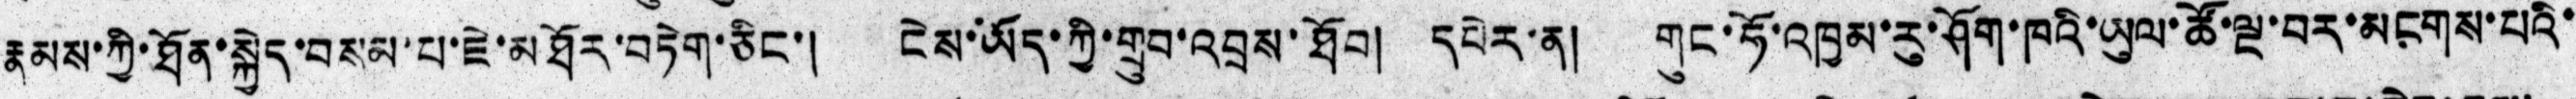རྣམས་ཀྱི་ཐོན་སྐྱེད་བསམ་པ་ཇེ་མཐོར་བཏེག་ཅིང་། ངེས་ཡོད་ཀྱི་གྲུབ་འབྲས་ཐོབ། དཔེར་ན། གུང་ཧོ་འཁྱམ་རུ་ཤོག་ཁའི་ཡུལ་ཚོ་ལྔ་བར་མངགས་པའི་
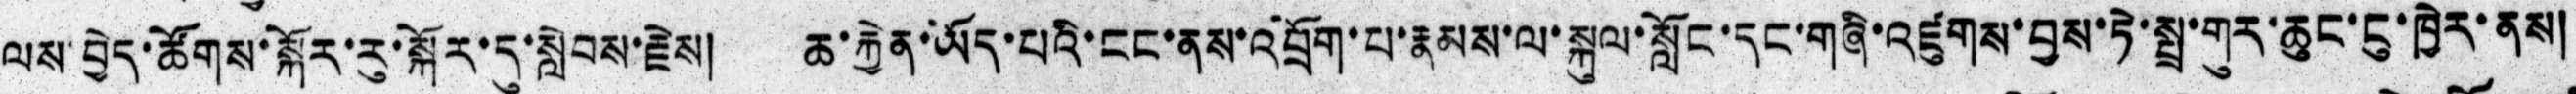ལས་བྱེད་ཚོགས་སྐོར་རུ་སྐོར་དུ་སླེབས་རྗེས། ཆ་རྐྱེན་ཡོད་པའི་ངང་ནས་འབྲོག་པ་རྣམས་ལ་སྐུལ་སློང་དང་གཞི་འཛུགས་བྱས་ཏེ་སྤྲ་གུར་ཆུང་ངུ་ཁྱེར་ནས།
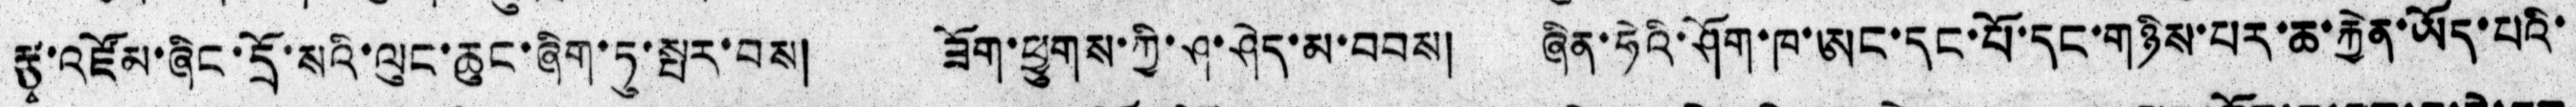རྩྭ་འཛོམ་ཞིང་དྲོ་སའི་ལུང་ཆུང་ཞིག་ཏུ་སྤར་བས།  ཟོག་ཕྱུགས་ཀྱི་ཤ་ཤེད་མ་བབས།  ཞིན་ཧེའི་ཤོག་ཁ་ཨང་དང་པོ་དང་གཉིས་པར་ཆ་རྐྱེན་ཡོད་པའི་
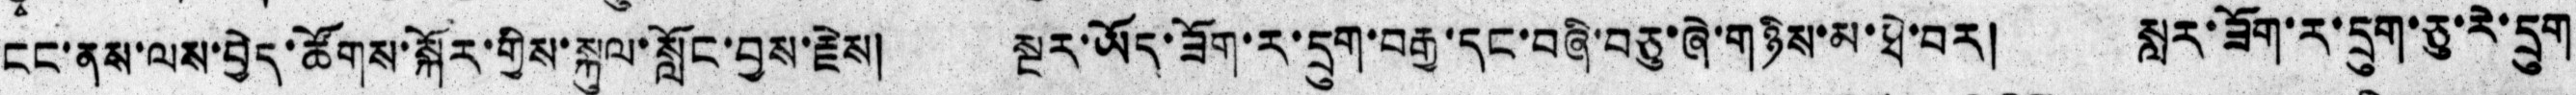ངང་ནས་ལས་བྱེད་ཚོགས་སྐོར་གྱིས་སྐུལ་སློང་བྱས་རྗེས། སྔར་ཡོད་ཟོག་ར་དྲུག་བརྒྱ་དང་བཞི་བཅུ་ཞེ་གཉིས་མ་ཐེ་བར། སླར་ཟོག་ར་དྲུག་ཅུ་རེ་དྲུག
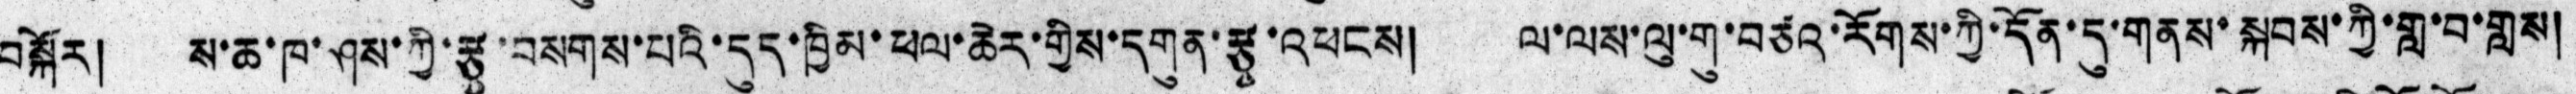བསྐོར།   ས་ཆ་ཁ་ཤས་ཀྱི་རྩྭ་བསགས་པའི་དུད་ཁྱིམ་ཕལ་ཆེར་གྱིས་དགུན་རྩྭ་འཕངས།  ལ་ལས་ལུ་གུ་བཙའ་རོགས་ཀྱི་དོན་དུ་གནས་སྐབས་ཀྱི་གླ་བ་གླས།
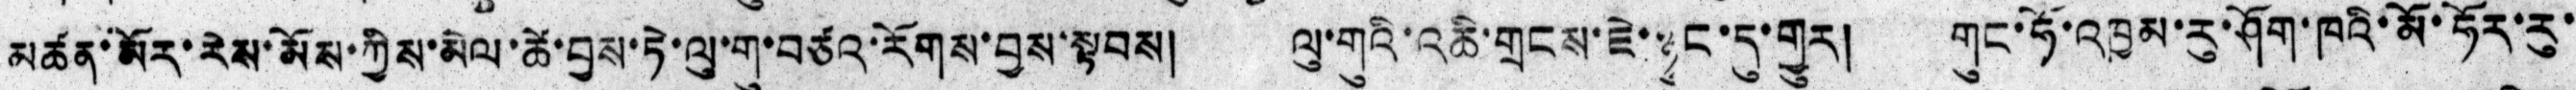མཚན་མོར་རེས་མོས་ཀྱིས་མེལ་ཚེ་བྱས་ཏེ་ལུ་གུ་བཙའ་རོགས་བྱས་སྟབས།  ལུ་གུའི་འཆི་གྲངས་ཇེ་ཉུང་དུ་གྱུར།  གུང་ཧོ་འཁྱམ་རུ་ཤོག་ཁའི་མོ་ཧོར་རུ་
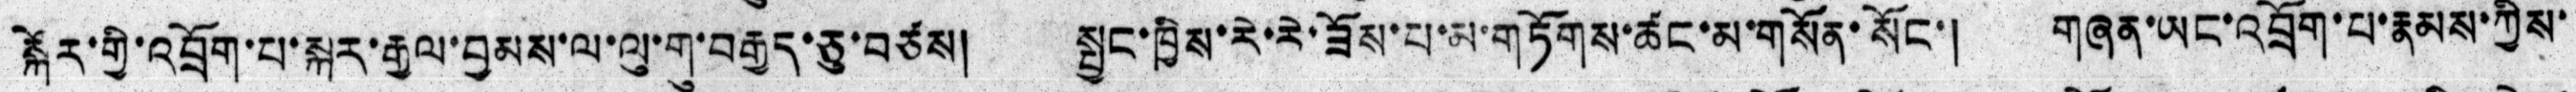སྐོར་གྱི་འབྲོག་པ་སྐར་རྒྱལ་བྱམས་ལ་ལུ་གུ་བརྒྱད་ཅུ་བཙས། སྤྱང་ཁྱིས་རེ་རེ་ཟོས་པ་མ་གཏོགས་ཚང་མ་གསོན་སོང་། གཞན་ཡང་འབྲོག་པ་རྣམས་ཀྱིས་
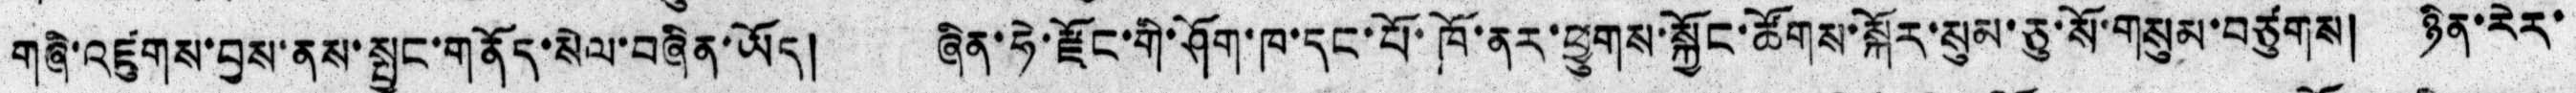གཞི་འཛུགས་བྱས་ནས་སྤྱང་གནོད་སེལ་བཞིན་ཡོད། ཞིན་ཧེ་རྫོང་གི་ཤོག་ཁ་དང་པོ་ཁོ་ནར་ཕྱུགས་སྐྱོང་ཚོགས་སྐོར་སུམ་ཅུ་སོ་གསུམ་བཙུགས། ཉིན་རེར་
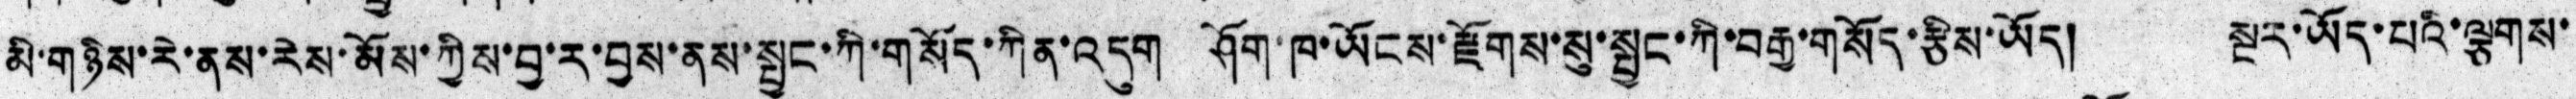མི་གཉིས་རེ་ནས་རེས་མོས་ཀྱིས་བྱ་ར་བྱས་ནས་སྤྱང་ཀི་གསོད་ཀིན་འདུག ཤོག་ཁ་ཡོངས་རྫོགས་སུ་སྦྱང་ཀི་བརྒྱ་གསོད་རྩིས་ཡོད། སྔར་ཡོད་པའི་ལྕགས་
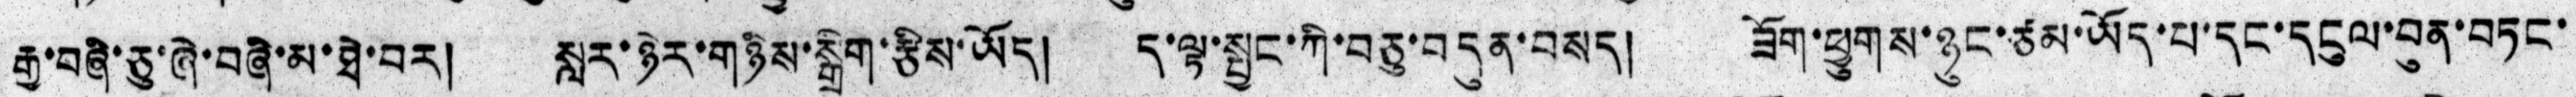རྒྱ་བཞི་ཅུ་ཞེ་བཞི་མ་ཐེ་བར།  སླར་ཉེར་གཉིས་སྒྲིག་རྩིས་ཡོད།  ད་ལྟ་སྤྱང་ཀི་བཅུ་བདུན་བསད།  ཟོག་ཕྱུགས་ཉུང་ཙམ་ཡོད་པ་དང་དངུལ་བུན་བཏང་
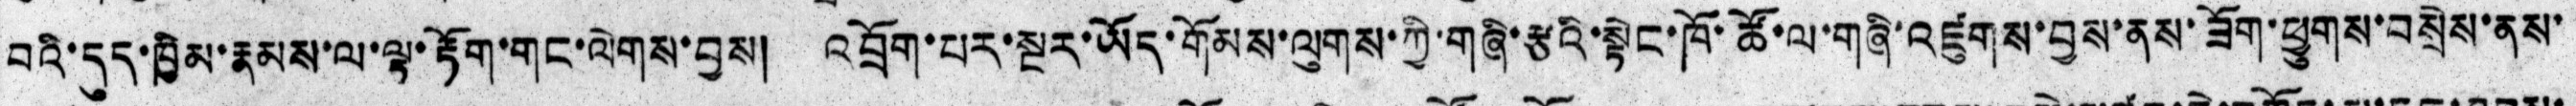བའི་དུད་ཁྱིམ་རྣམས་ལ་ལྟ་རྟོག་གང་ལེགས་བྱས།  འབྲོག་པར་སྔར་ཡོད་གོམས་ལུགས་ཀྱི་གཞི་རྩའི་སྟེང་ཁོ་ཚོ་ལ་གཞི་འཛུགས་བྱས་ནས་ཟོག་ཕྱུགས་བསྲེས་ནས་
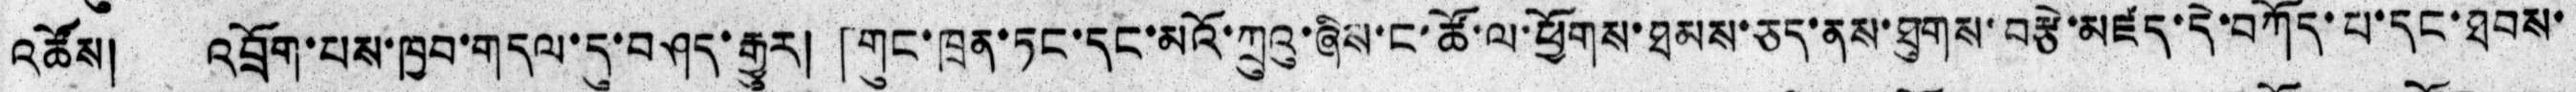འཚོས། འབྲོག་པས་ཁྱབ་གདལ་དུ་བཤད་རྒྱུར། 「གུང་ཁྲན་ཏང་དང་མའོ་ཀྲུའུ་ཞིས་ང་ཚོ་ལ་ཕྱོགས་ཐམས་ཅད་ནས་ཐུགས་བརྩེ་མཛད་དེ་བཀོད་པ་དང་ཐབས་
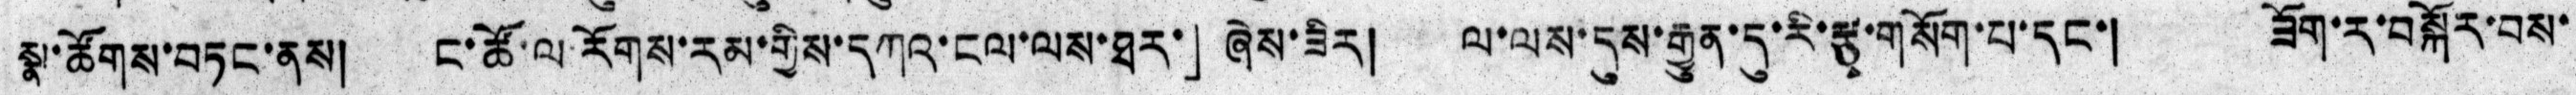སྣ་ཚོགས་བཏང་ནས།  ང་ཚོ་ལ་རོགས་རམ་གྱིས་དཀའ་ངལ་ལས་ཐར་」ཞེས་ཟེར།  ལ་ལས་དུས་རྒྱུན་དུ་རི་རྩྭ་གསོག་པ་དང་།  ཟོག་ར་བསྐོར་བས་
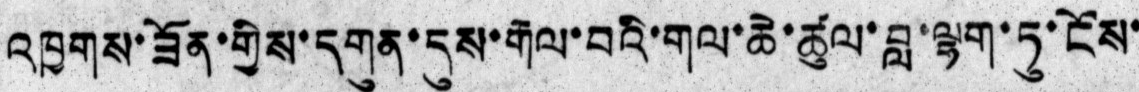འཁྱགས་ཟོན་གྱིས་དགུན་དུས་རྒལ་བའི་གལ་ཆེ་ཚུལ་བླ་ལྷག་ཏུ་ངོས་
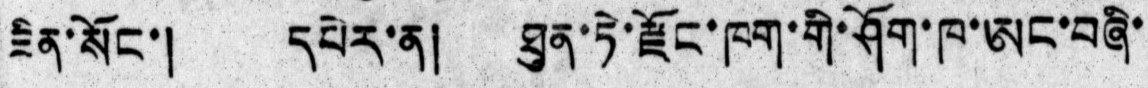ཟིན་སོང་།  དཔེར་ན།  ཐུན་ཏེ་རྫོང་ཁག་གི་ཤོག་ཁ་ཨང་བཞི་
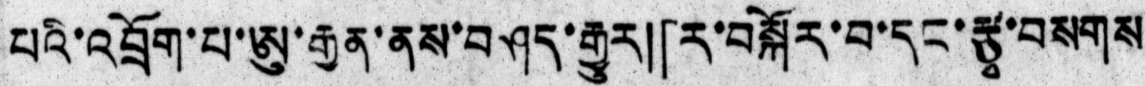པའི་འབྲོག་པ་ཨུ་རྒྱན་ནས་བཤད་རྒྱུར།「ར་བསྐོར་བ་དང་རྩྭ་བསགས
